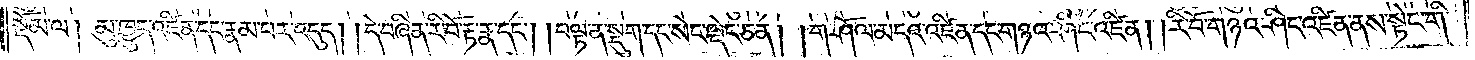སྡོམ་ལ། མུ་ཁྱུད་འཛིན་དང་རྣམ་པར་འདུད། །དེ་བཞིན་རི་བོ་རྟ་རྣ་དང༌། །བལྟ་ན་སྡུག་དང་སེང་ལྡེང་ཅན་།གཤོལ་མདའ་འཛིན་དང་གཉའ་ཤིང་འཛིན། །རི་བོ་གཉའ་ཤིང་འཛིན་ནས་སྟེང་གི་
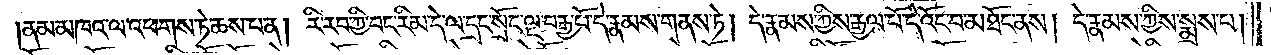ནམ་མཁའ་ལ་འཕགས་ཏེ་ཆས་པ་ན། རི་རབ་ཀྱི་བང་རིམ་དེ་ལ་དྲང་སྲོང་ལྔ་བརྒྱ་པོ་དེ་རྣམས་གནས་ཏེ། དེ་རྣམས་ཀྱིས་རྒྱལ་པོ་དེ་འོང་བ་མཐོང་ནས། དེ་རྣམས་ཀྱིས་སྨྲས་པ།
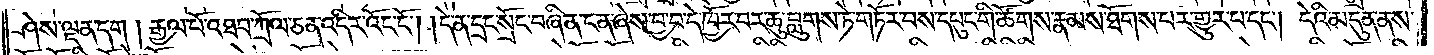ཤེས་ལྡན་དག །རྒྱལ་པོ་འཐབ་ཀྲོལ་ཅན་འདིར་འོང་ངོ༌། །དེ་ན་དྲང་སྲོང་བཞིན་ངན་ཞེས་བྱ་བ་དེ་ཁྱོར་བར་ཆུ་བླུགས་ཏེ་གཏོར་བས་དཔུང་གི་ཚོགས་རྣམས་ཐོགས་པར་གྱུར་པ་དང༌། དེའི་མདུན་ནས་
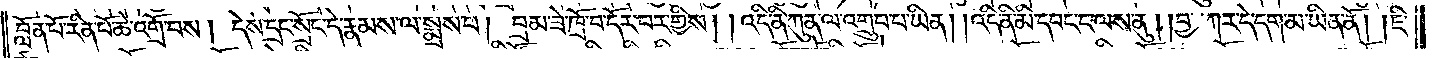བློན་པོ་རིན་པོ་ཆེ་འགྲོ་བས། དེས་དྲང་སྲོང་དེ་རྣམས་ལ་སྨྲས་པ། བྲམ་ཟེ་ཁྲོ་བ་དོར་བར་གྱིས། །འདི་ནི་ཀུན་ལ་འགྲུབ་པ་ཡིན། །འདི་ནི་མི་དབང་ང་ལས་ནུ། །བྱ་ཀར་དེ་དག་མ་ཡིན་ནོ། །ཇི་
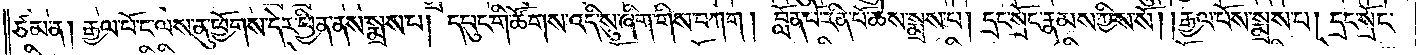ཙམ་ན། རྒྱལ་པོ་ང་ལས་ནུ་ཕྱོགས་དེར་ཕྱིན་ནས་སྨྲས་པ། དཔུང་གི་ཚོགས་འདི་སུ་ཞིག་གིས་བཀག །བློན་པོ་རིན་པོ་ཆེས་སྨྲས་པ། དྲང་སྲོང་རྣམས་ཀྱིས་སོ། །རྒྱལ་པོས་སྨྲས་པ། དྲང་སྲོང་
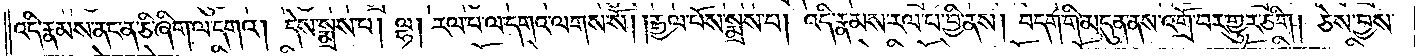འདི་རྣམས་ནང་ན་ཅི་ཞིག་ལ་དགའ། དེས་སྨྲས་པ། ལྷ། རལ་པ་ལ་དགའ་ལགས་སོ། །རྒྱལ་པོས་སྨྲས་པ། འདི་རྣམས་རལ་པ་བྱི་ནས། བདག་གི་མདུན་ནས་འགྲོ་བར་གྱུར་ཅིག །ཅེས་བྱས་
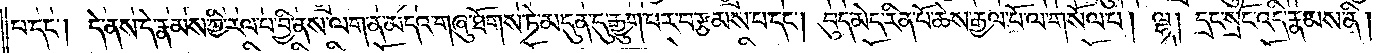པ་དང༌། དེ་ནས་དེ་རྣམས་ཀྱི་རལ་པ་བྱི་ནས་ལག་ན་མདའ་གཞུ་ཐོགས་ཏེ་མདུན་དུ་རྒྱུག་པར་བརྩམས་པ་དང༌། བུད་མེད་རིན་པོ་ཆེས་རྒྱལ་པོ་ལ་གསོལ་པ། ལྷ། དྲང་སྲོང་འདི་རྣམས་ནི།
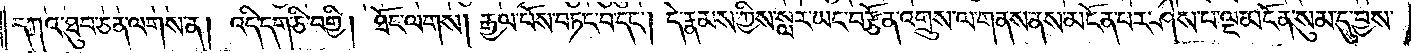དཀའ་ཐུབ་ཅན་ལགས་ན། འདི་དག་ཅི་བགྱི། ཐོང་ལགས། རྒྱལ་པོས་བཏང་བ་དང༌། དེ་རྣམས་ཀྱིས་སླར་ཡང་བརྩོན་འགྲུས་ལ་གནས་ནས་མངོན་པར་ཤེས་པ་ལྔ་མངོན་སུམ་དུ་བྱས་
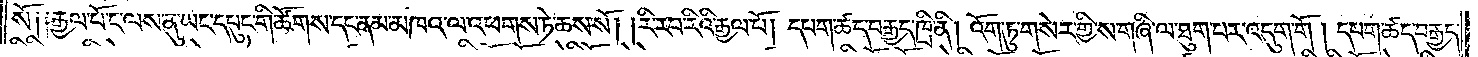སོ༑ ༑རྒྱལ་པོ་ང་ལས་ནུ་ཡང་དཔུང་གི་ཚོགས་དང་ནམ་མཁའ་ལ་འཕགས་ཏེ་ཆས་སོ། །རི་རབ་རིའི་རྒྱལ་པོ། དཔག་ཚད་བརྒྱད་ཁྲི་ནི། འོག་ཏུ་གསེར་གྱི་ས་གཞི་ལ་ཐུག་པར་འདུག་གོ། དཔག་ཚད་བརྒྱད་
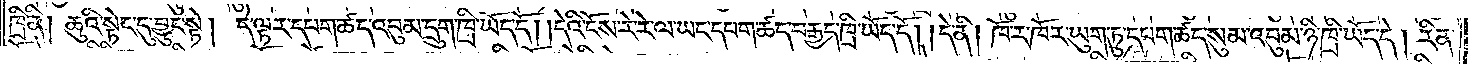ཁྲི་ནི། ཆུའི་སྟེང་དུ་བྱུང་སྟེ། དེ་ལྟར་དཔག་ཚད་འབུམ་དྲུག་ཁྲི་ཡོད་དོ། །དེའི་ངོས་རེ་རེ་ལ་ཡང་དཔག་ཚད་བརྒྱད་ཁྲི་ཡོད་དོ། །དེ་ནི། ཁོ་ར་ཁོར་ཡུག་ཏུ་དཔག་ཚད་སུམ་འབུམ་ཉི་ཁྲི་ཡོད་དེ། རིན་
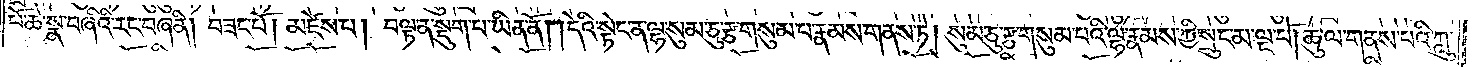པོ་ཆེ་སྣ་བཞིའི་རང་བཞིན། བཟང་པོ། མཛེས་པ། བལྟ་ན་སྡུག་པ་ཡིན་ནོ། །དེའི་སྟེང་ན་ལྷ་སུམ་ཅུ་རྩ་གསུམ་པ་རྣམས་གནས་ཏེ། སུམ་ཅུ་རྩ་གསུམ་པའི་ལྷ་རྣམས་ཀྱི་སྲུང་མ་ལྔ་པོ། ཆུ་ལ་གནས་པའི་ཀླུ་
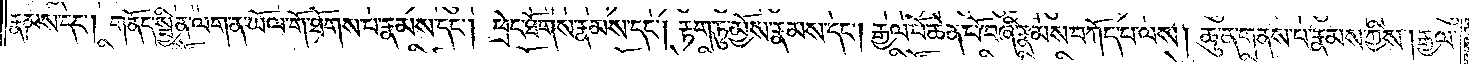རྣམས་དང༌། གནོད་སྦྱིན་ལག་ན་ཡོལ་གོ་ཐོགས་པ་རྣམས་དང༌། ཕྲེང་ཐོགས་རྣམས་དང༌། རྟག་ཏུ་མྱོས་རྣམས་དང༌། རྒྱལ་པོ་ཆེན་པོ་བཞི་རྣམས་བཀོད་པ་ལས། ཆུ་ན་གནས་པ་རྣམས་ཀྱིས། རྒྱལ་
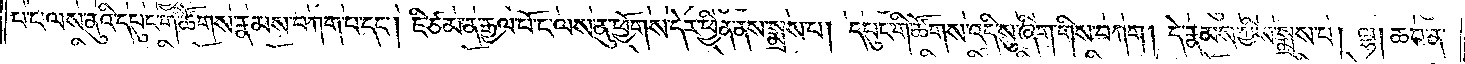པ་ང་ལས་ནུའི་དཔུང་གི་ཚོགས་རྣམས་བཀག་པ་དང༌། ཇི་ཙམ་ན་རྒྱལ་པོ་ང་ལས་ནུབ་ཕྱོགས་དེར་ཕྱིན་ནས་སྨྲས་པ། དཔུང་གི་ཚོགས་འདི་སུ་ཞིག་གིས་བཀག །དེ་རྣམས་ཀྱིས་སྨྲས་པ། ལྷ། ཆབ་ན་
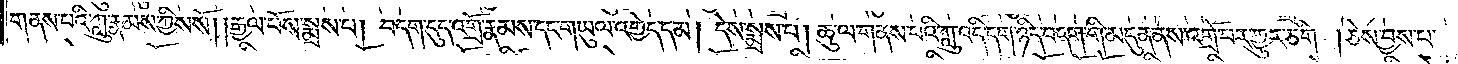གནས་པའི་ཀླུ་རྣམས་ཀྱིས་སོ། །རྒྱལ་པོས་སྨྲས་པ། བདག་དུད་འགྲོ་རྣམས་དང་གཡུལ་འགྱེད་དམ། དེས་སྨྲས་པ། ཆུ་ལ་གནས་པའི་ཀླུ་འདི་དག་ཉིད་དག་ཉིད་བདག་གི་མདུན་ནས་འགྲོ་བར་གྱུར་ཅིག །ཅེས་བྱས་པ་
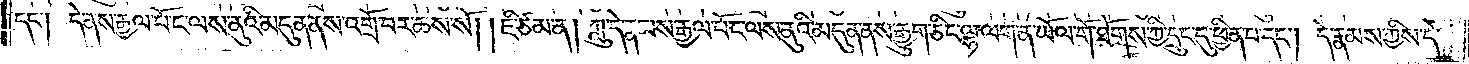དང༌། དེ་ནས་རྒྱལ་པོ་ང་ལས་ནུའི་མདུན་ནས་འགྲོ་བར་ཆས་སོ། །ཇི་ཙམ་ན། ཀླུ་དེ་རྣམས་རྒྱལ་པོ་ང་ལས་ནུའི་མདུན་ནས་རྒྱུག་ཅིང་ལྷ་ལག་ན་ཡོལ་གོ་ཐོགས་ཀྱི་དྲུང་དུ་ཕྱིན་པ་དང༌། དེ་རྣམས་ཀྱིས་དེ་
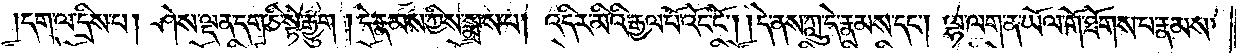།དག་ལ་དྲིས་པ། ཤེས་ལྡན་དག་ཅི་སྟེ་རྒྱུག །དེ་རྣམས་ཀྱིས་སྨྲས་པ། འདིར་མིའི་རྒྱལ་པོ་འོང་ངོ༌། །དེ་ནས་ཀླུ་དེ་རྣམས་དང༌། ལྷ་ལག་ན་ཡོལ་གོ་ཐོགས་པ་རྣམས་
